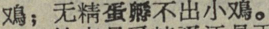鳮；无精蛋孵不出小鳮。
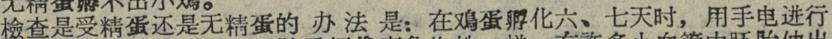檢查是受精蛋还是无精蛋的办法是：在鳮蛋孵化六、七天时，用手电进行
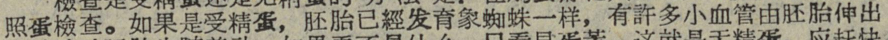照蛋檢查。如果是受精蛋，胚胎已經发育象蜘蛛一样，有許多小血管由胚胎伸出
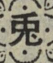兎
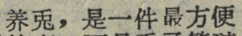养兎，是一件最方便
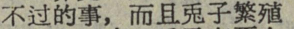不过的事，而且兎子繁殖
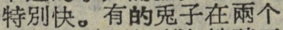特別快。有的兎子在兩个
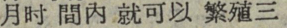月时間内就可以繁殖三
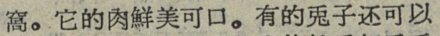窩。它的肉鮮美可口。有的兎子还可以
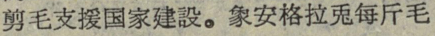剪毛支援国家建設。象安格拉兎每斤毛
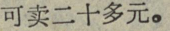可卖二十多元。
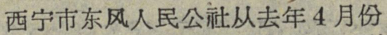西宁市东风人民公社从去年4月份
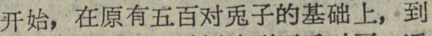开始，在原有五百对兎子的基础上，到
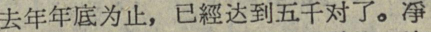去年年底为止，已經达到五千对了。淨
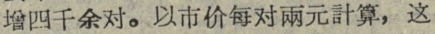增四千余对。以市价每对兩元計算，这
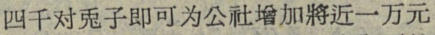四千对兎子即可为公社增加將近一万元
